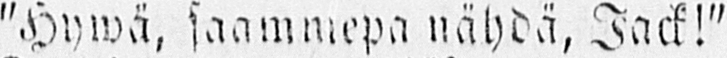"Hywä, saammepa nähdä, Jack!"
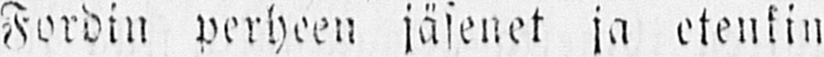Fordin perheen jäsenet ja etenkin
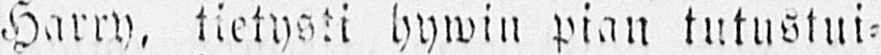Harry, tietysti hywin pian tutustui-
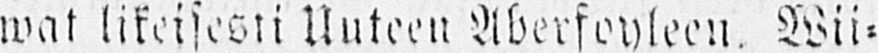wat likeisesti Uuteen Aberfoyleen. Wii-
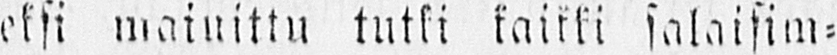meksi maiuittu tutki kaikki salaisim-
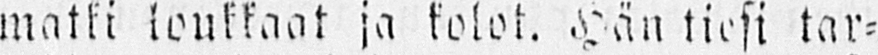matki loukkaak ja kolot. Hän tiesi tar-
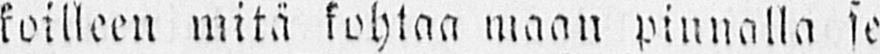koilleen mitä kohtaa maan piunalla se
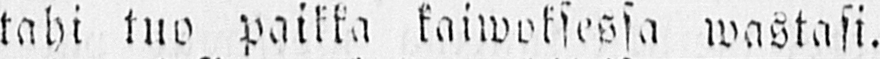tahi tuo paikka kaiwoksessa wastasi.
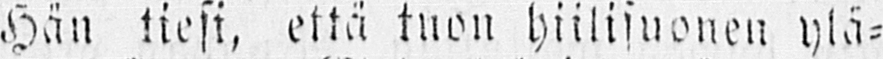Hän tiesi, että tuon hiilisuonen ylä-
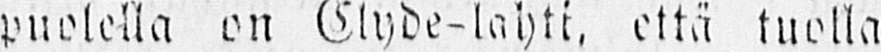puolella on Clyde-lahti, että tuolla
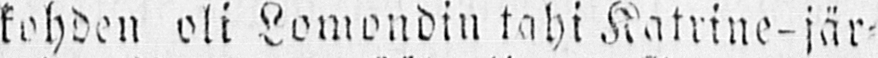kohden oli Lomondin tahi Katrine-jär-
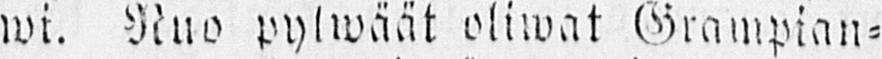wi. Nuo pylwäät oliwat Grampian-
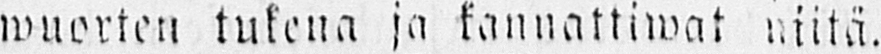wuorten tukena ja kannattiwat niitä.
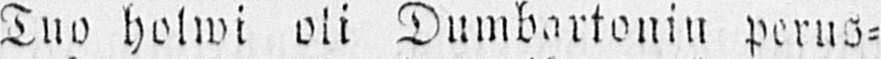Tuo holwi oli Dumbartonin perus-
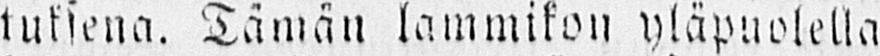tuksena. Tämän lammikon yläpuolella
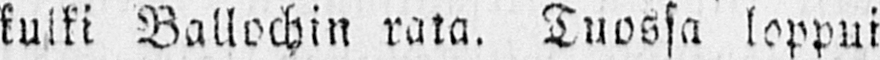kulki Baklochin rata. Tuossa loppui
